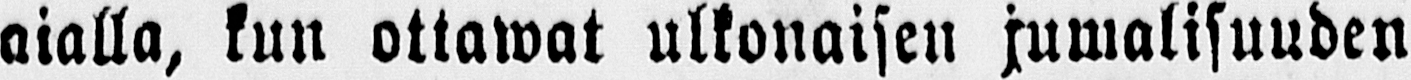aialla, kun ottawat ulkonaisen jumalisuuden
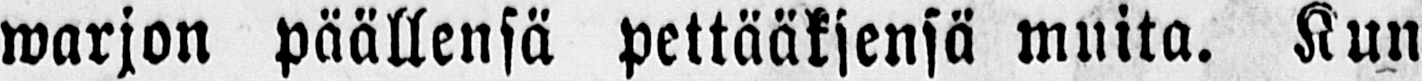warjon päällensä pettääksensä muita. Kun
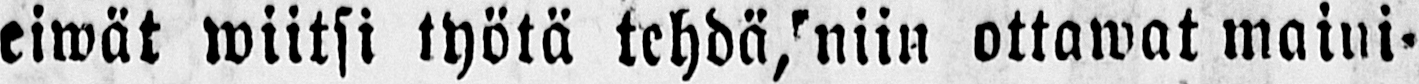eiwät wiitsi työtä tehdä, niin ottawat main-
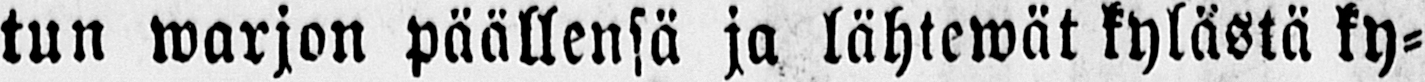tun warjon päällensä ja lähtewät kyläsiä ky-
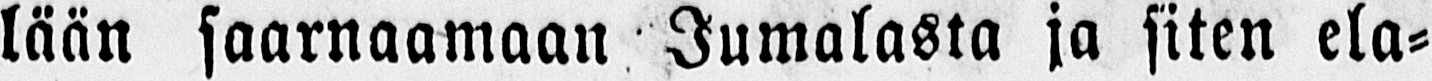lään saarnaamaan Jumalasta ja siten ela-
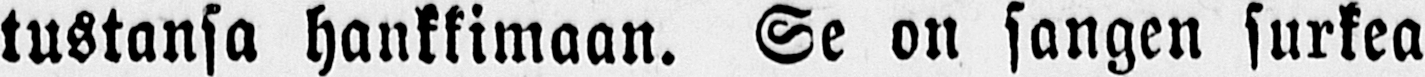tustansa hankkimaan. Se on sangen surkea
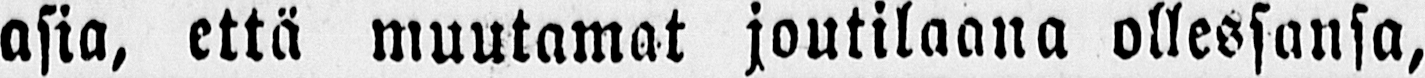asia, että muutamat joutilaana ollessansa,
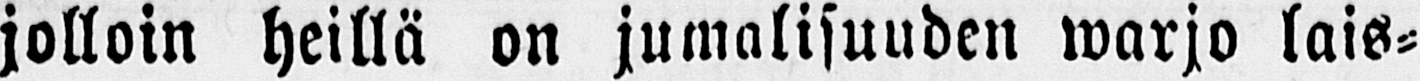jolloin heillä on jumalisuuden warjo lais-
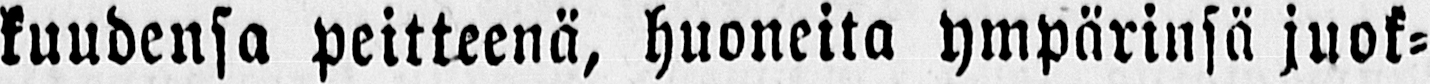kuudensa peitteenä, huoneita ympärinsä juok-
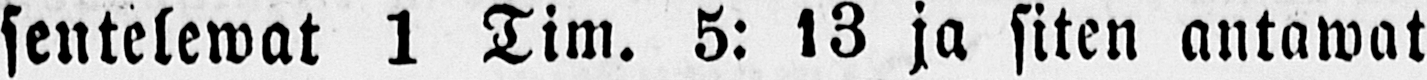sentelewat 1 Tim. 5: 13 ja siten antawat
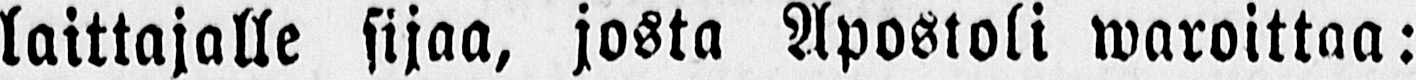laittajalle sijaa, josta Apostoli waroittaa:
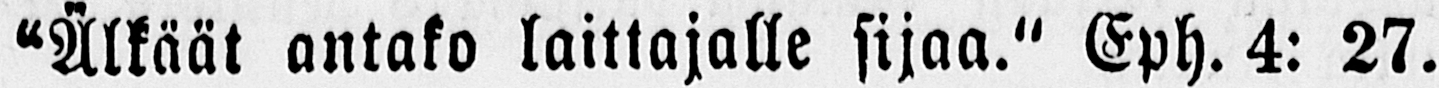“Älkäät antako laittajalle sijaa.“ Eph. 4: 27.
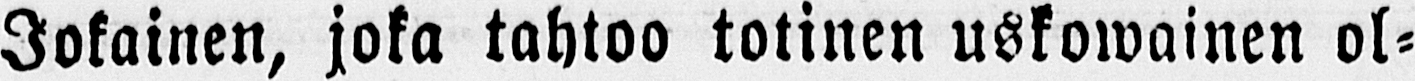Jokainen, joka tahtoo totinen uskowainen ol-
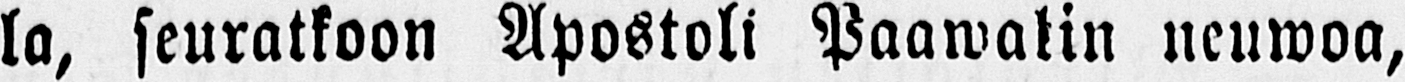la, seuratkoon Apostoli Paawatin neuwoa,
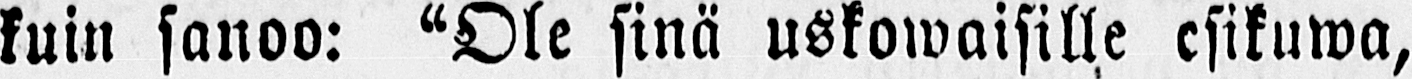kuin sanoo: “Ole sinä uskowaisille esikuwa,
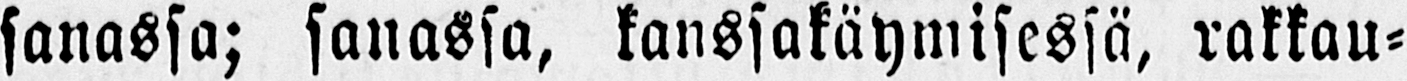sanassa; sanassa, kanssakäymisessä, rakkau-
